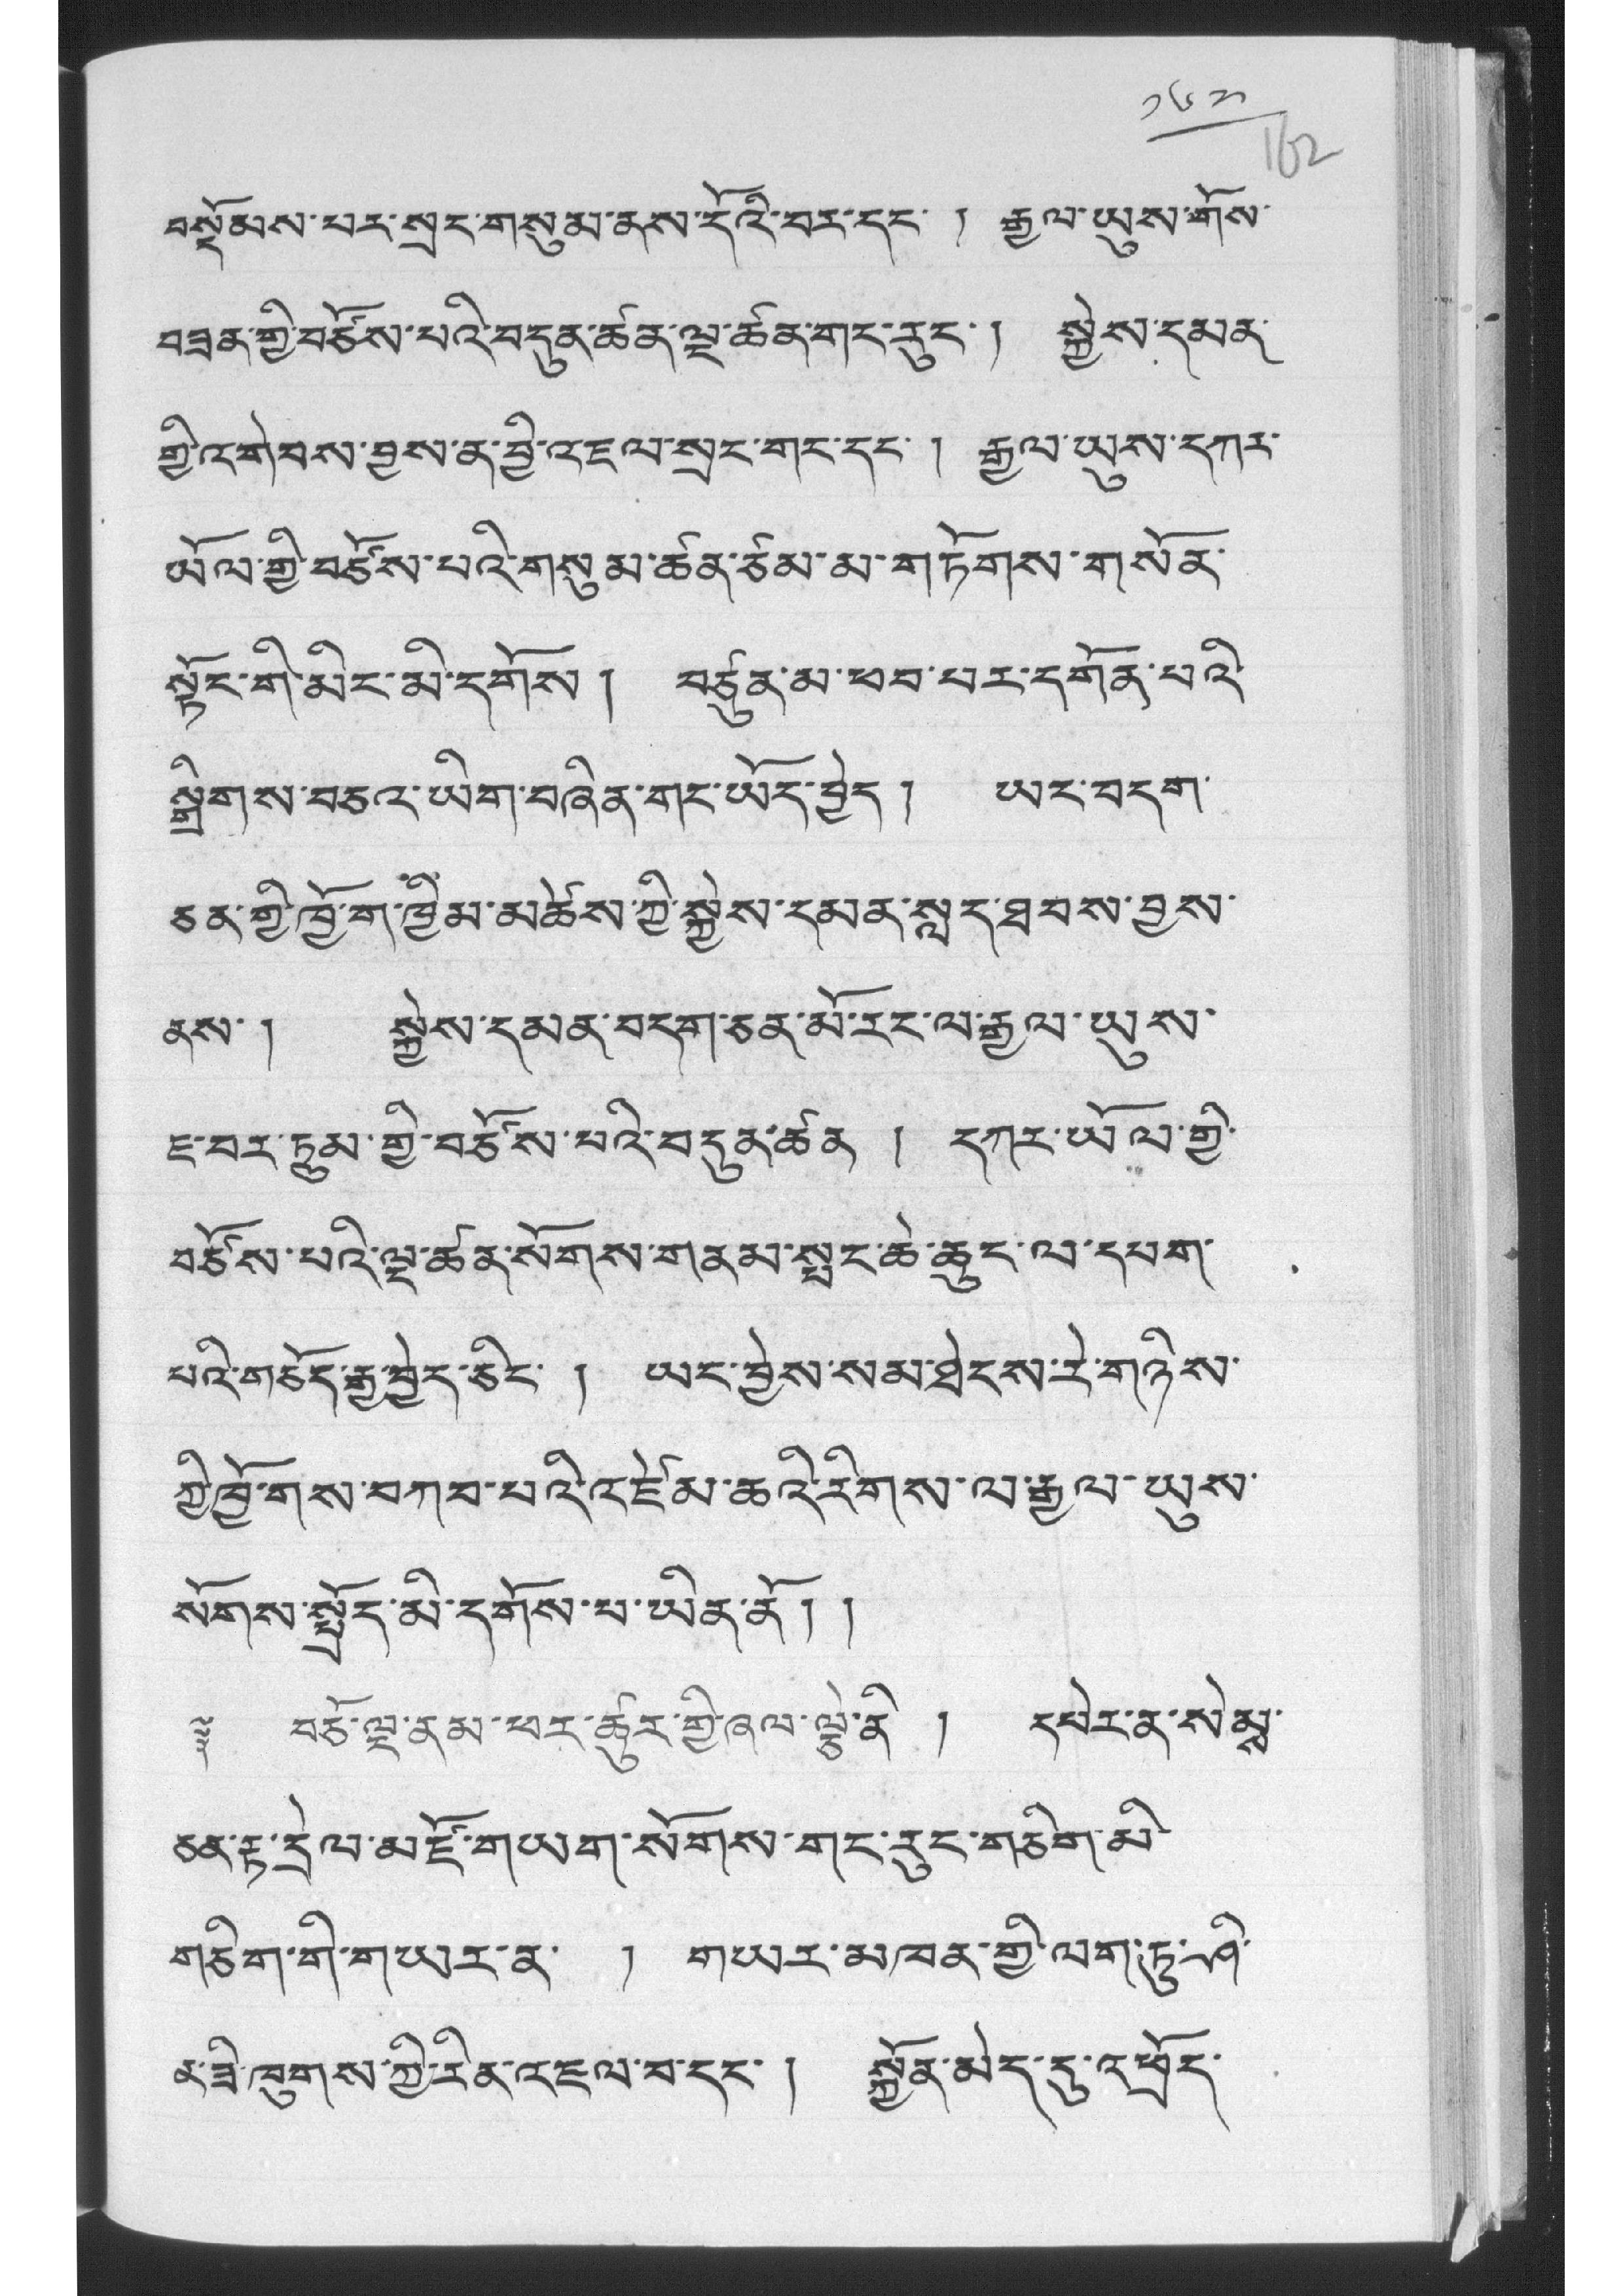༡༦༢
བསྡོམས་པར་སྲང་གསུམ་ནས་དོའི་བར་དང་ ། རྒྱལ་ཡུས་གོས་
བཟན་གྱི་བཙོས་པའི་བདུན་ཚན་ལྔ་ཚན་གང་རུང་། སྐྱེས་དམན་
གྱི་འགེབས་བྱས་ན་བྱི་འཇལ་སྲང་གང་དང་། རྒྱལ་ཡུས་དཀར་
ཡོལ་གྱི་བཙོས་པའི་གསུམ་ཚན་ཙམ་མ་གཏོགས་གསོན་
སྟོང་གི་མིང་མི་དགོས། བཙུན་མ་ཕབ་པར་དགོན་པའི་
སྒྲིགས་བཅའ་ཡིག་བཞིན་གང་ཡོད་བྱེད། ཡང་བདག་
ཅན་གྱི་ཁྱོ་ག་ཁྱིམ་མཚེས་ཀྱི་སྐྱེས་དམན་སླད་ཐབས་བྱས་
ནས་། སྐྱེས་དམན་བདག་ཅན་མོ་རང་ལ་རྒྱལ་ཡུས་
ཇ་བར་ཏུམ་གྱི་བཙོས་པའི་བདུན་ཚན ། དཀར་ཡོལ་གྱི་
བཙོས་པའི་ལྔ་ཚན་སོགས་གནམ་སྤང་ཆེ་ཆུང་ལ་དཔག་
པའི་གཅོད་རྒྱ་བྱེད་ཅིང་ ། ཡང་བྱེས་སམ་ཐེངས་རེ་གཉིས་
ཀྱི་ཁྱོ་གས་བཀབ་པའི་འཛེམ་ཆའི་རིགས་ལ་རྒྱལ་ཡུས་
སོགས་སྤྲོད་མི་དགོས་པ་ཡིན་ནོ། །
༈ བཅོ་ལྔ་ནམ་ཕར་ཚུར་གྱི་ཞལ་ལྕེ་ནི ། དཔེར་ན་སེམས་
ཅན་རྟ་དྲེལ་མཛོ་གཡག་སོགས་གང་རུང་གཅིག་མི་
གཅིག་གི་གཡར་ན་ ། གཡར་མཁན་གྱི་ལག་ཏུ་ཤི་
ན་ཟི་ཁུགས་ཀྱི་རིན་འཇལ་བ་དང་། སྐྱོན་མེད་དུ་འཕྲོད་
